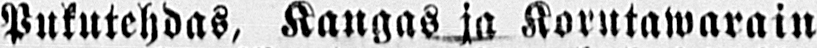Pukutehdas, Kangas ja Korutawarain
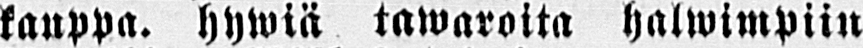kauppa. hywiä tawaroita halwimpiin
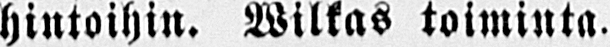hintoihin. Wilkas toiminta.
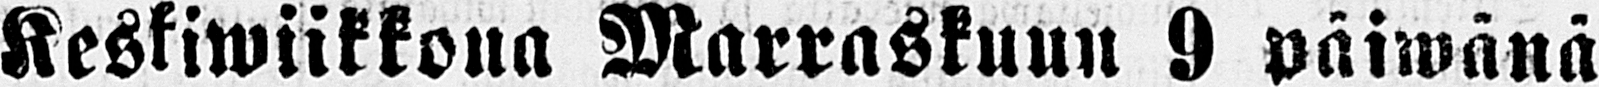Keskiwiikkona Marraskuun 9 päiwänä
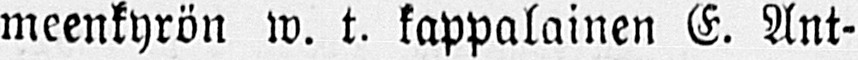meenkyrön w. t. kappalainen E. Ant-
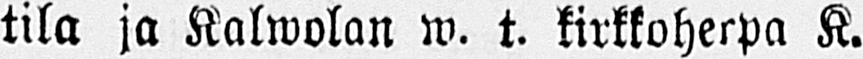tila ja Kalwolan w. t. kirkkoherpa K.
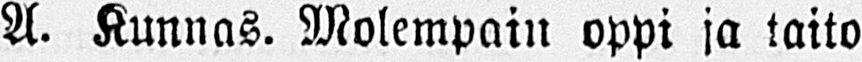A. Kunnas. Molempain oppi ja taito
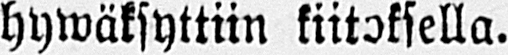hywäksyttiin kiitoksella.
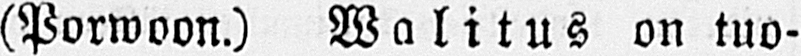(Porwoon.) Walitus on tuo-
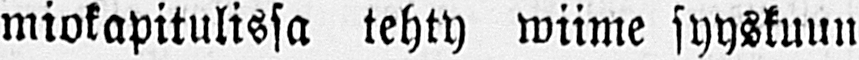miokapitulissa tehty wiime syyskuun
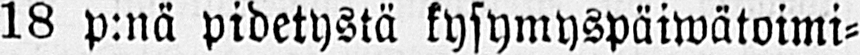18 p:nä pidetystä kysymyspäiwätoimi-
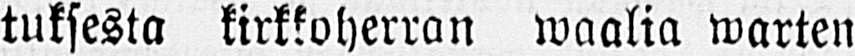tuksesta kirkkoherran waalia warten
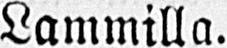Lammilla.
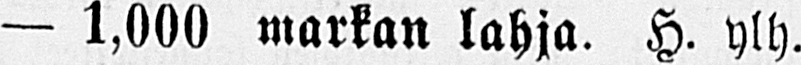— 1,000 markan lahja. H. ylh.
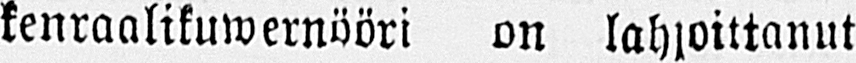kenraalikuwernööri on lahjoittanut
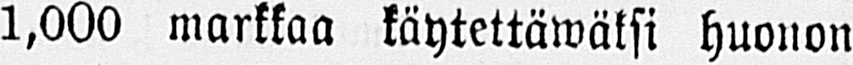1,000 markkaa käytettäwäksi huonon
